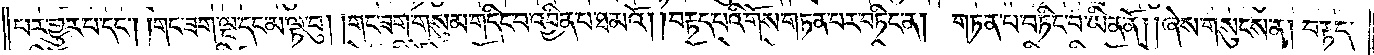པར་གྱུར་པ་དང༌། །གང་ཟག་ལྔ་དང་མ་ལྟ་བུ། །གང་ཟག་གསུམ་གདིང་བ་འབྱིན་པ་ཐ་མའོ། །བརྟད་པའི་གོས་གཏན་པར་བཏིང་ན། གཏན་པ་བཏིང་བ་ཡིན་ནོ། །ཞེས་གསུངས་ན། བརྟད་
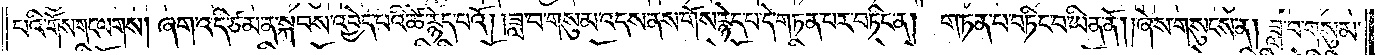པའི་གོས་གང་ལགས། ཞག་འདི་ཙམ་ན་སྐབས་འབྱེད་པའི་ཚེ་རྙེད་པའོ། །ཟླ་བ་གསུམ་འདས་ནས་གོས་རྙེད་པ་དེ་གཏན་པར་བཏིང་ན། གཏན་བ་བཏིང་བ་ཡིན་ནོ། །ཞེས་གསུངས་ན། ཟླ་བ་གསུམ་
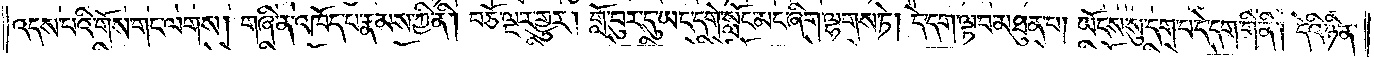འདས་པའི་གོས་གང་ལགས། གཞི་ན་འཁོད་པ་རྣམས་ཀྱི་ནི། བཅོ་ལྔར་གྱུར། གློ་བུར་དུ་ཡང་དགེ་སློང་མང་ཞིག་ལྷགས་ཏེ། དེ་དག་ལྟ་བ་མཐུན་པ། ཡོངས་སུ་དག་པ་དེ་དག་གི་ནི། དེའི་ཉིན་
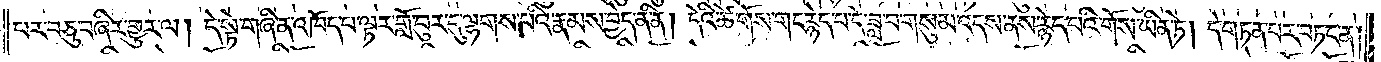པར་བཅུ་བཞིར་གྱུར་ལ། དེ་སྟེ་བཞིན་འཁོད་པ་ལྟར་གློ་བུར་དུ་ལྷགས་པའི་རྣམས་བྱེད་ན་ནི། དེའི་ཚེ་གོས་གང་རྙེད་པ་དེ་ཟླ་བ་གསུམ་འདས་ནས་རྙེད་པའི་གོས་ཡིན་ཏེ། དེ་གཏན་པར་བཏང་ན།
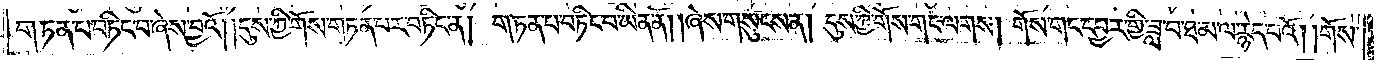གཏན་པ་བཏིང་བ་ཞེས་བྱའོ། །དུས་ཀྱི་གོས་གཏན་པར་བཏིང་ན། གཏན་པ་བཏིང་བ་ཡིན་ནོ། །ཞེས་གསུངས་ན། དུས་ཀྱི་གོས་གང་ལགས། གོས་གང་དབྱར་གྱི་ཟླ་བ་ཐ་མ་ལ་རྙེད་པའོ། །གོས་
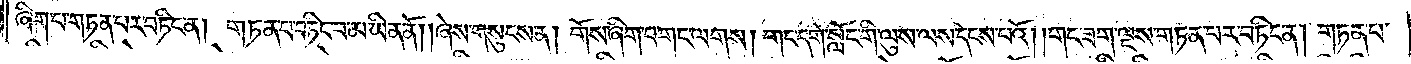ཞིག་པ་གཏན་པར་བཏིང་ན། གཏན་པ་བཏིང་བ་མ་ཡིན་ནོ། །ཞེས་གསུངས་ན། གོས་ཞིག་པ་གང་ལགས། གང་དགེ་སློང་གི་ལུས་ལས་དེངས་པའོ། །གང་ཟག་ལྔས་གཏན་པར་བཏིང་ན། གཏན་པ་
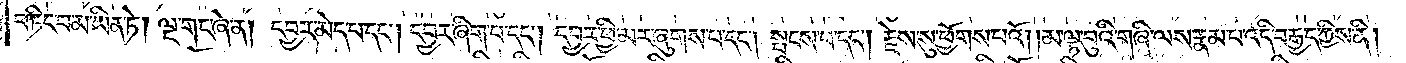བཏིང་བ་མ་ཡིན་ཏེ། ལྔ་གང་ཞེ་ན། དབྱར་མེད་པ་དང༌། དབྱར་ཞིག་པ་དང༌། དབྱར་ཕྱི་མར་ཞུགས་པ་དང༌། སྤངས་པ་དང༌། རྗེས་སུ་ཕྱོགས་པའོ། །མ་ལྟ་བུའི་གཞི་ལས་རྣམ་པ་འདི་བརྒྱད་ཀྱིས་ནི།
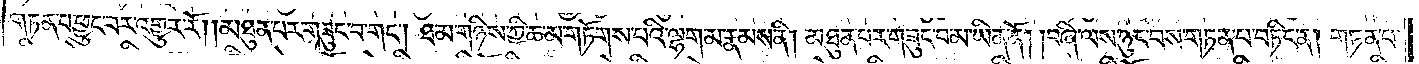གཏན་པ་ཕྱུང་བར་འགྱུར་རོ། །མཐུན་པར་གཟུང་བ་གང༌། ཐ་མ་གཉིས་ཀྱི་ཆ་མ་གཏོགས་པའི་ལྷག་མ་རྣམས་ནི། མཐུན་པར་གཟུང་བ་མ་ཡིན་ནོ། །བཞི་ལས་ཉུང་བས་གཏན་པ་བཏིང་ན། གཏན་པ་
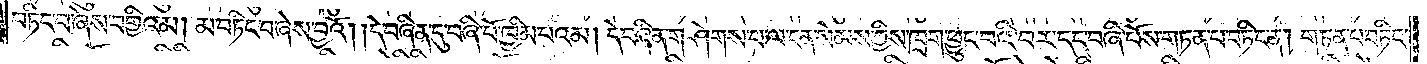བཏིང་བ་ཞེས་བགྱིའམ། མ་བཏིང་བ་ཞེས་བྱའོ། །དེ་བཞིན་དུ་བཞི་པོ་ཁྱིམ་པའམ། དེ་བཞིན་གཤེགས་པ་ལ་ངན་སེམས་ཀྱིས་ཁྲག་ཕྱུང་བའི་བར་དང་བཞི་པོས་གཏན་པ་བཏིང་ན། གཏན་པ་བཏིང་
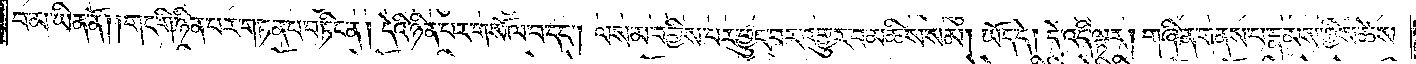བ་མ་ཡིན་ནོ། །གང་གི་ཉིན་པར་གཏན་པ་བཏིང་ན། དེའི་ཉིན་པར་གསོལ་བ་དང༌། ལས་མ་བགྱིས་པར་ཕྱུང་བར་འགྱུར་བ་མཆིས་སམ། ཡོད་དེ། དེ་འདི་ལྟར། གཞི་ན་གནས་པ་རྣམས་ཀྱིས་ཚེས་
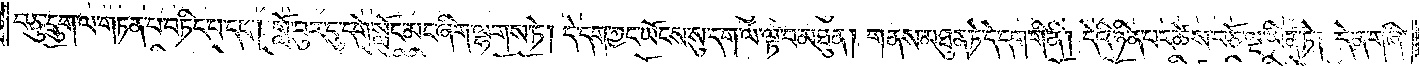བཅུ་དྲུག་ལ་གཏན་པ་བཏིང་བ་དང༌། གློ་བུར་དུ་དགེ་སློང་མང་ཞིག་ལྷགས་ཏེ། དེ་དག་ཀྱང་ཡོངས་སུ་དག་ལ་ལྟ་བ་མཐུན། གནས་མཐུན་ཏེ་དེ་དག་གི་ནི། དེའི་ཉིན་པར་ཚེ་བཅོ་ལྔ་ཡིན་ཏེ། དེ་ན་གཞི་
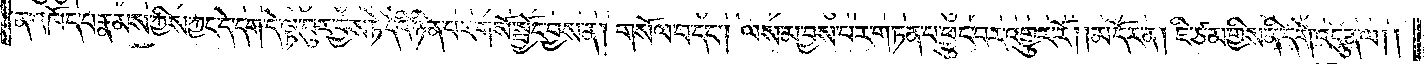ན་འཁོད་པ་རྣམས་ཀྱིས་ཀྱང་དེ་དག་དེ་ལྟ་བུར་བྱས་ཏེ་དེའི་ཉིན་པར་གསོ་སྦྱོང་བྱས་ན། གསོལ་བ་དང༌། ལས་མ་བྱས་པར་གཏན་པ་ཕྱུང་བར་འགྱུར་རོ། །མདོར་ན། ཇི་ཙམ་གྱིས་ནི་དགེ་འདུན་ལ། །
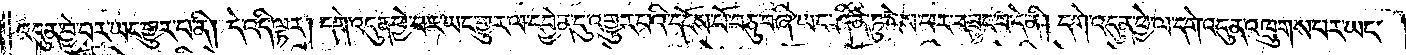འདུན་བྱེ་བར་ཡང་གྱུར་པ་ནི། དེ་འདི་ལྟར། དགེ་འདུན་ཕྱེ་བར་ཡང་གྱུར་ལ་དབྱེན་དུ་འགྱུར་པའི་དངོས་པོ་བཅུ་བཞི་ཡང་ཤིན་ཏུ་ངེས་པར་བཟུང་བ་དེ་ནི། དགེ་འདུན་ཕྱེ་ལ་དགེ་འདུན་འཁྲུགས་པར་ཡང་
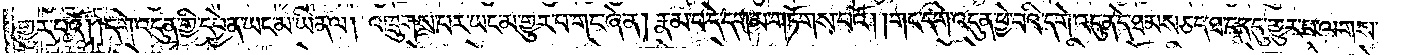གྱུར་པའོ། །དགེ་འདུན་གྱི་དབྱེན་ཡང་མ་ཡིན་ལ། འཁྲུགས་པར་ཡང་མ་གྱུར་བ་གང་ཞེ་ན། རྣམ་པ་དེ་དག་མ་གཏོགས་པའོ། །གང་དགེ་འདུན་ཕྱེ་བའི་དགེ་འདུན་དེ་ཐམས་ཅད་ཐ་དད་དུ་གྱུར་པ་ལགས་
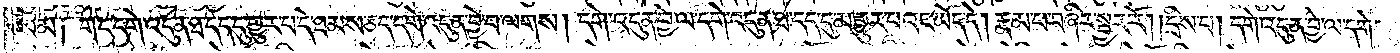སམ༑ གང་དགེ་འདུན་ཐ་དད་དུ་གྱུར་པ་དེ་ཐམས་ཅད་དགེ་འདུན་བྱེ་བ་ལགས། དགེ་འདུན་བྱེ་ལ་དགེ་འདུན་ཐ་དད་དུ་མ་གྱུར་པའང་ཡོད་དེ། རྣམ་པ་བཞིར་སྦྱར་རོ། །དྲིས་པ། དགེ་འདུན་བྱེ་ལ་དགེ་
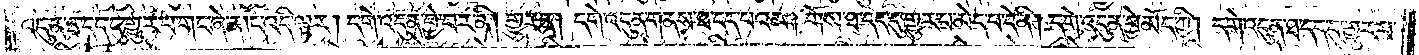འདུན་ཐ་དད་དུ་གྱུར་པ་གང་ཞེ་ན། དེ་འདི་ལྟར། དགེ་འདུན་བྱེ་བར་ནི། གྱུར་ན། དགེ་འདུན་གནས་ཐ་དད་པའམ། གོས་ཐ་དད་དུ་གྱུར་པ་མེད་པ་དེ་ནི། དགེ་འདུན་བྱེ་མོད་ཀྱི། དགེ་འདུན་ཐ་དད་དུ་གྱུར་པ་
